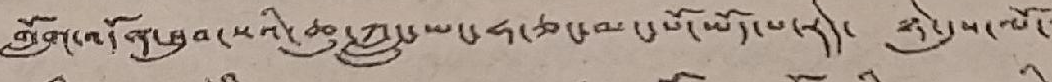གློག་འདོན་ཐུབ་པའི་ཆུ་ཀླུང་ཡང་ཧ་ཅང་མང་པོ་ཡོད་པ་རེད་ ཉེ་དུས་ལོ་་
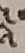འི
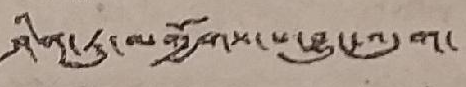ཤིན་ཏུ་མགྱོགས་པ་བྱུང་འདུག་
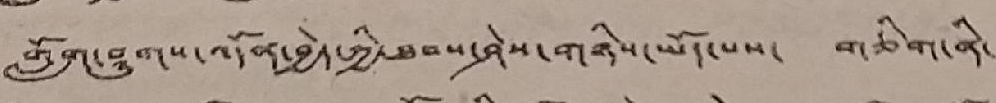གློག་ཤུགས་འདོན་བྱེད་ཀྱི་ཐབས་ཤེས་གཉིས་ཡོད་པས་ གཅིག་ནི་
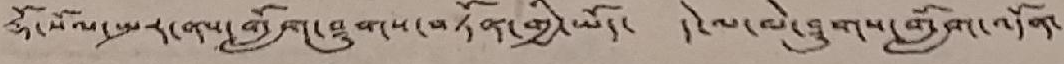རྡོ་སོལ་སྤར་ནས་གློག་ཤུགས་བཏོན་གྱི་ཡོད་ དེ་ལ་མེ་ཤུགས་གློག་འདོན་
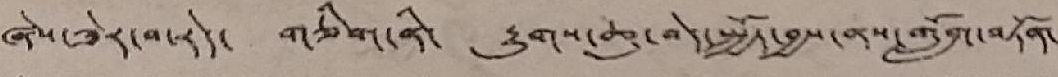ཞེས་ཟེར་བ་རེད་ གཅིག་ནི་ རྒྱུགས་ཆུ་བེད་སྤྱོད་བཡས་ནས་གློག་བཏོན་
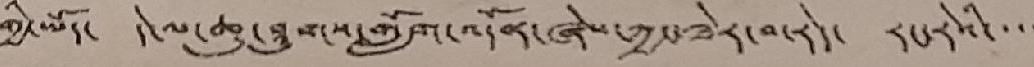གྱི་ཡོད་ དེ་ལ་ཆུ་ཤུགས་གློག་འདོན་ཞེས་ཀྱང་ཟེར་བ་རེད་ རང་རེའི་་་་
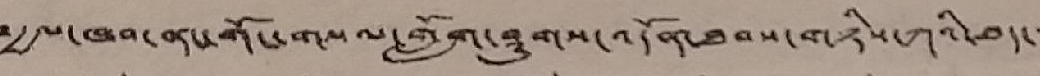༸རྒྱལ་ཁབ་ནང་གོང་གསལ་གློག་ཤུགས་འདོན་ཐབས་གཉིས་ཀའི་ཐད་
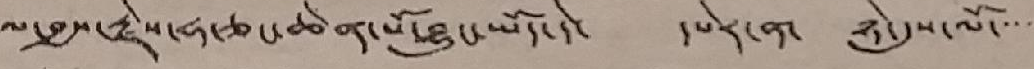ལ་བྱས་རྗེས་ཧ་ཅང་ཆེན་པོ་བྱུང་ཡོད་དེ་ དཔེར་ན་ ཉེ་དུས་ལོ་་་་་
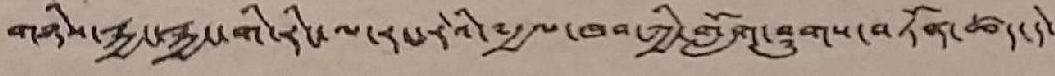གཉིས་རྐྱང་རྐྱང་གི་རིང་ལ་རང་རེའི་༸རྒྱལ་ཁབ་ཀྱི་གློག་ཤུགས་བཏོན་ཚད་དེ་
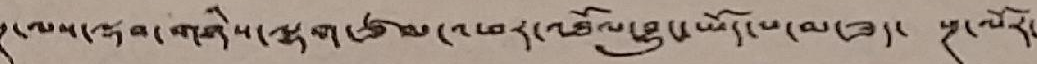སྔ་ལས་ལྡབ་གཉིས་ལྷག་ཙམ་འཕར་འཐོལ་བྱུང་ཡོད་པ་མ་ཟད་ སྔ་ལོར་
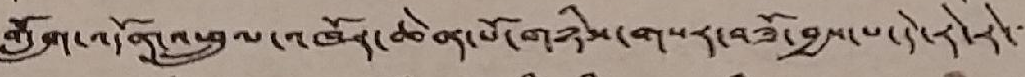གློག་འདོན་འཕྲུལ་འཁོར་ཆེན་པོ་གཉིས་གསར་བཟོ་བྱས་པ་དེ་རེ་རེ་་་་
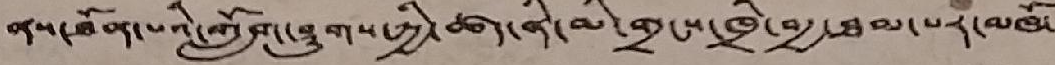ནས་ཐོན་པའི་གློག་ཤུགས་ཀྱི་ཚད་ནི་མི་གྲངས་ཁྲི་བརྒྱ་ཐམ་པར་མཁོ་
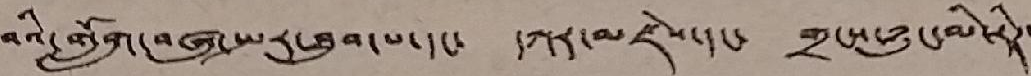བའི་གློག་བཞུ་སྤར་ཐུབ་པ་དང་ དཀར་མཛེས་དང་ གྲངས་ཉུང་མི་རིཊ་
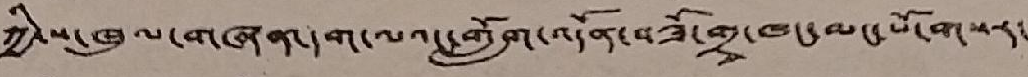ཀྱི་ས་ཁུལ་གཞན་དག་ལའང་གློག་འདོན་བཟོ་གྲྭ་ཁང་མང་པོ་གསར་་་
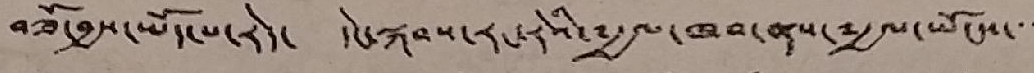བཟོ་བྱས་ཡོད་པ་རེད་ དེངས་སྐབས་རང་རེའི་༸རྒྱལ་ཁབ་ནས་༸རྒྱལ་ཡོངས་་་་
